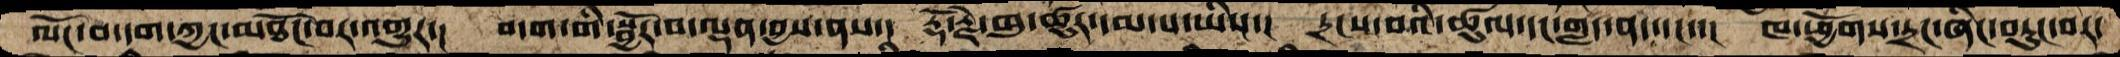ལོང་བ་དག་ཀྱང་མཐོང་བར་འགྱུར་།  བདག་གི་སྦྱོར་བ་ལྡན་བྱས་ནས་།  རྡོ་རྗེ་ཁུ་ཚུར་དམ་པ་ཡིས་།  དྲངས་བའི་ཚུལ་དང་གླད་ནད་དང་་།  ཁ་ཕྱོགས་དྲང་ཞིང་བཏུང་བར་
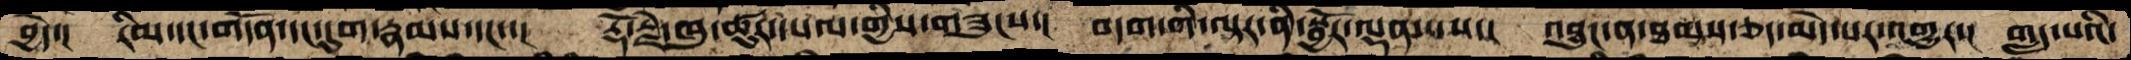བྱེད་།  རིམ་དང་གདོན་དང་དུག་རྣམས་དང་་།  རྡོ་རྗེ་ཁུ་ཚུར་དཔལ་གྱིས་གཟུངས་།  བདག་གི་ལྟར་ནི་སྦྱོར་ལྡན་པས་།  འབྱུང་ན་ཐམས་ཅད་མེད་པར་འགྱུར་།  གླད་པའི་
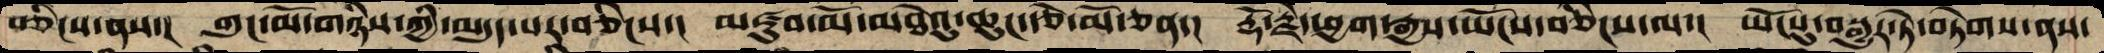བཅིངས་ནས་།  གུང་མོ་གཉིས་ཀྱི་མདུད་པར་བཅིངས་།  མཛུབ་མོ་མཐེའུ་ཆུང་རྩེ་མོ་ཅན་།  རྡོ་རྗེ་ཕྱག་རྒྱས་ཡོངས་བཅིངས་ལ་།  ཡོངསུ་བསྒྱུར་ཏེ་བཏེགས་ནས་
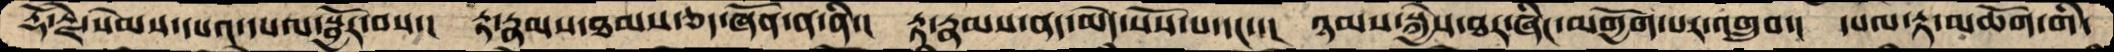རྡོ་རྗེ་སེམས་དཔའ་དཔལ་སྦྱོར་བས་།  རྟ་རྣམས་ཐམས་ཅད་ཞོན་ན་ནི་།  རྟ་རྣམས་ནད་མེད་སོས་པ་དང་་།  ཉམས་སྐྱེས་ཐར་ཞིང་མགྱོག་པར་འགྲུབ་།  དཔལ་རྟ་མཆོག་གི་
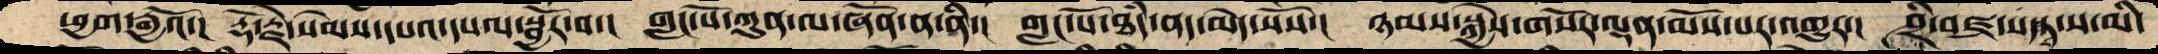ཕྱག་རྒྱའོ་།  རྡོ་རྗེ་སེམས་དཔའ་དཔལ་སྦྱོར་བ་།  གླང་པོ་ཀུན་ལ་ཞོན་ན་ནི་།  གླང་པོ་ཐཾད་ནད་མེད་སོས་།  ཉམས་སྐྱེས་གསོར་ལྡན་མོས་པར་འགྱུར་།  ཤྲཱཱི་བཛྲ་ས་ཏྭ་ས་མི་
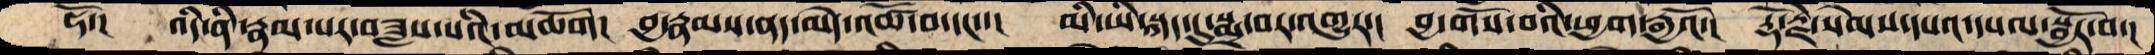ཧོ་།  འདི་ནི་རྣམ་པར་བཟླས་པའི་མཆོག།  བྱ་རྣམས་ནད་མེད་འཚོ་བ་དང་་།  མི་ཡི་སྐད་དུ་སྨྲ་བར་འགྱུར་།  བྱ་གསོ་བའི་ཕྱག་རྒྱའོ་།  རྡོ་རྗེ་སེམས་དཔའ་དཔལ་སྦྱོར་བ་།
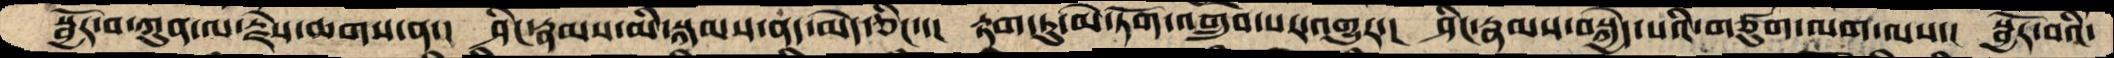སྦྱོར་བ་ཀུན་ལ་རྗེས་ཆགས་ན་།  ཤིང་རྣམས་མི་སྐམས་ནད་མེད་ཅིང་་།  རྟག་ཏུ་མེ་ཏོག་འགྲུབ་པར་འགྱུར་།  ཤིང་རྣམས་བསྐྱེད་པའི་གཙུག་ལག་ལས་།  སྦྱོར་བའི་
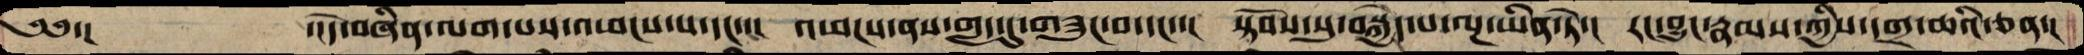༄༅་།   ་།དེ་བཞིན་ལག་པས་འཕངས་པ་དང་་།  འཕངས་ནས་གླད་དུ་གཟུང་བ་དང་་།  སྟོབས་སུ་བསྐྱེད་པ་ལྔ་ཡིན་ཏེ་།  རང་བྱུང་རྣམས་ཀྱིས་དགྲ་ཆའི་ཅན་།
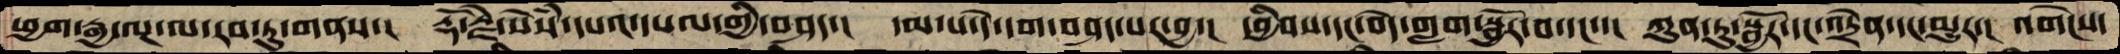ཕྱག་རྒྱ་ལྔ་ལ་རབ་ཏུ་གནས་།  རྡོ་རྗེ་སེཾས་དཔའ་དཔལ་གྱི་བཤད་།  དམ་པ་དེ་དག་བཤད་པར་བྱ་།  དབྱིབས་དང་བདེ་གླག་སྦྱོར་བ་དང་་།  ཀུན་ཏུ་སྦྱོར་དང་འདྲེན་དང་མྱུར་།  འགེངས་
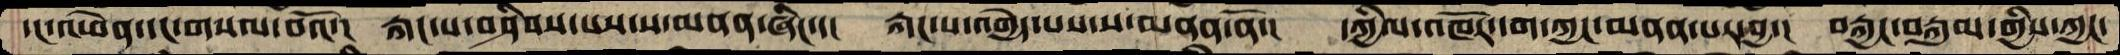དང་འཕེན་དང་གསལ་བའོ་།  རྐང་པ་བཤིབས་པས་ས་མནན་ཞིང་་།  རྐང་པ་འགྱེད་པས་ས་མནན་ནོ་།  དཀྱིལ་འཁོར་དག་ཀྱང་མནན་པར་བྱ་།  བརྐྱང་བརྐུམ་གྱིས་ཀྱང་
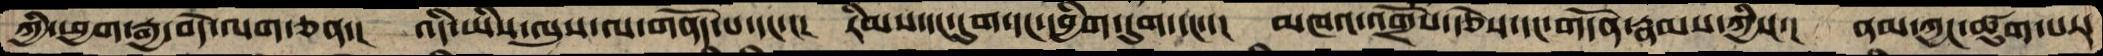ཀྱི་ཕྱག་རྒྱ་བདེ་ལག་ཅན་།  འདི་ཡིས་ལུས་ལ་གནོད་པ་དང་་།  རིམས་དང་དུག་དང་དབྱིག་དུག་དང་་།  མཁའ་འགྲོས་རྩེས་དང་གདོན་རྣམས་ཀྱིས་།  ནམ་ཀྱང་ཚུག་པར་
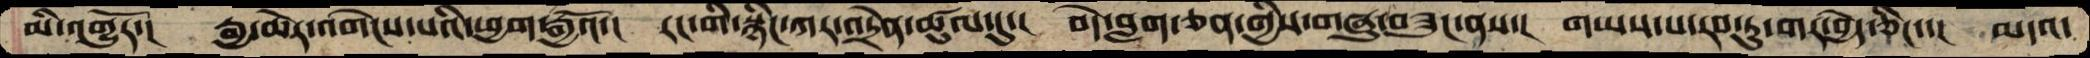མི་འགྱུརོ་།  རྒྱ་ཆེར་འགེངས་པའི་ཕྱག་རྒྱའོ་།  རང་གི་སྙིང་ཀར་འདྲེན་ཚུལ་དུ་།  བདེ་བླག་ཅན་གྱིས་གཞུ་བཟུང་ནས་།  གཡས་པ་རབ་ཏུ་གར་བྱེད་ཅིང་་།  མདའ་
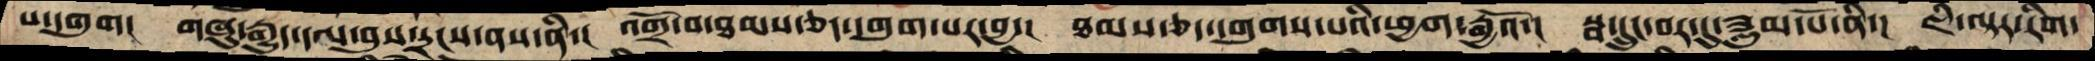པ་དགུག།  གཞུ་རྒྱུད་དལ་བུས་དྲངས་ནས་ནི་།  འགྲོ་བ་ཐམས་ཅད་དགུག་པར་བྱ་།  ཐམས་ཅད་དགུགས་པའི་ཕྱག་རྒྱའོ་།  སྦ་དྲུང་བར་དུ་ཟླུམ་པོ་ནི་།  ཇི་ལྟར་རིག་
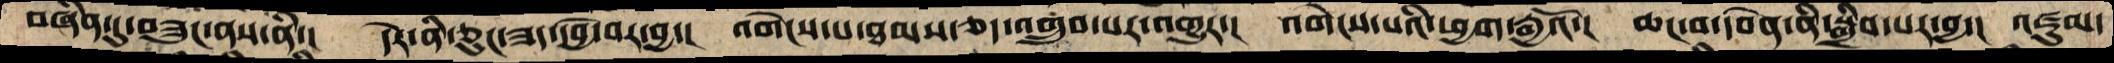བཞིན་དུ་བཟུང་ནས་ནི་།  དེར་ནི་ཅུང་ཟད་དབྱེ་བར་བྱ་།  འགེངས་པ་ཐམས་ཅད་འགྲུབ་པར་འགྱུར་།  འགེངས་པའི་ཕྱག་རྒྱའོ་།  ཆང་བ་དབེན་ནི་སྒྲིབ་པར་བྱ་།  འཛུམ་
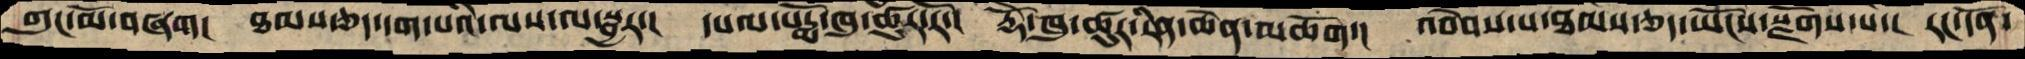གུང་མོ་བཞག།  ཐམས་ཅད་དག་པའི་ལས་ལ་སྦྱར་།  དཔལ་པདྨོ་ཁུ་ཚུར་རོ་།  རྡོེ་ཁུ་ཚུར་རིན་ཆེན་མཆོག་།  འབེབས་པ་ཐམས་ཅད་ཡོངས་སྫོགས་པ་།  རང་དོན་
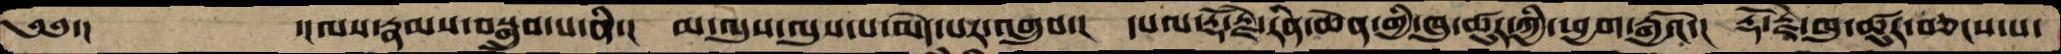༄༅་།     ་།ལས་རྣམས་བསྒྲུབ་པ་ནི་།  མ་ལུས་ལུས་པ་མེད་པར་འགྲུབ་།  དཔལ་རྡོ་རྗེ་རིན་ཆེན་གྱི་ཁུ་ཚུར་ཀྱི་ཕྱག་རྒྱའོ་།  རྡོ་རྗེ་ཁུ་ཚུར་བཅངས་པ་
